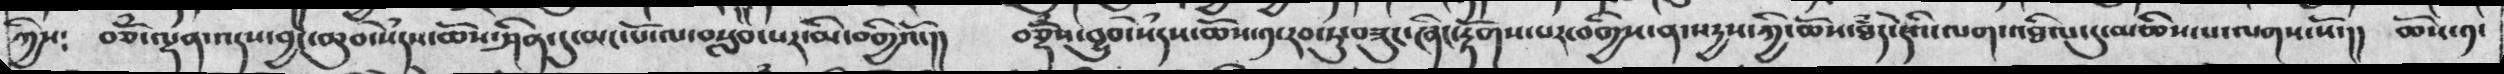ཀྱིས༴  བཅོཾ་ལྡན་འདས་བྱང་ཆུབ་སེཾདས་ཆོས་ཤིན་དུ་མང་པོ་བརླབ་པར་མི་བགྱིའོ་།།  བཅྡོཾས་བྱུབ་སེཾདས་ཆོས་༡་རབ་ཏུ་བཟུང་ཞིང་རྟོགས་པར་བགྱིས་ན་སདྱས་ཀྱི་ཆོས་ཐཾད་དེའི་ལག་འཐིལ་དུ་མཆིས་པ་ལགས་སོ་།།  ཆོས་༡་
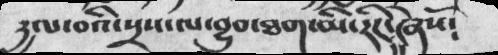དྱལ་བའི་སྲས་ལ་བྱུབ་ཐག་མི་རིང་ཞེསོ༴
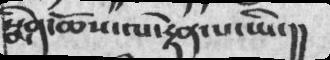སྨིན་ཆོས་ལ་རྟེན་པ་ཡི་།།
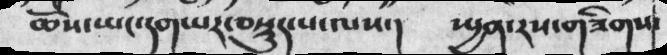ཆོས་ཡང་དག་བསྡུད་པ་ལས་།  སྤྱན་རས་གཟིགས་
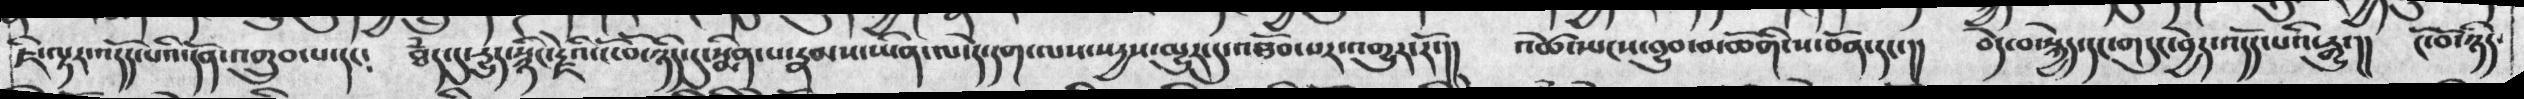ཇི་ལྟར་ལདོད་པའི་དོན་འགྲུབ་པ་དང༴  ཐཾད་དུ་རྱུད་སྙིང་རྗེའི་ངོ་བོ་ཉིད་དུ་སྨིན་པ་རྣམས་ཡིན་ལ་དེ་དག་ལས་སདྱས་མྱུར་དུ་འཐོབ་པར་འགྱུར་རོ་།།   འཚེ་སྤངས་བྱུབ་མཆོགོི་ས་བོན་དང་།།  བདེ་བ་སྐྱེད་དང་གདུང་བྱེད་འདོད་པའི་རྒྱུ་།།  ངོ་བོ་ཉིད་
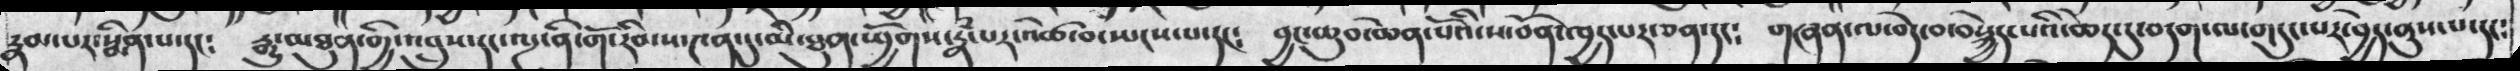རྣམ་པར་སྨིན་པ་དང༴       རྒྱུ་མཐུན་གྱི་འབྲུས་དང་ལྔ་ནི་གོ་རིམས་༤ན་དུ་མི་ཐུན་ཕྱོགས་རྣྃ་པར་འཚེ་བ་ཡངས་པ་དང༴   བྱང་ཆུབ་ཆེན་པོའི་ས་བོན་ཁྱད་པར་ཅན་དང༴   གཞན་ལ་བདེ་བ་བསྐྱེད་པའི་ཆེད་དུ་བདག་ལ་གདུང་པར་བྱེད་ནུས་པ་དང༴
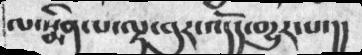ལ་སྨིན་པ་ལྟར་བུར་འདོད་གྱུར་པ་།།
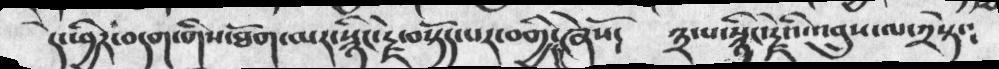དེ་ཕྱིར་བདག་གིས་ཐོག་མར་སྙིང་རྗེ་བསྟོད་པར་བགྱི་ཞེསོ༴  ༣་པ་སྙིང་རྗེའི་འབྲུས་ལ་༢སྟེ་༴
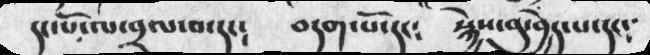དང་པོ་ལ་བྲལ་བ་དང༴      བདག་པོ་དང༴   སྐྱེས་བུ་བྱེད་པ་དང་།
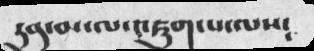དབུ་མ་ལ་འཇུག་པ་ལས༴
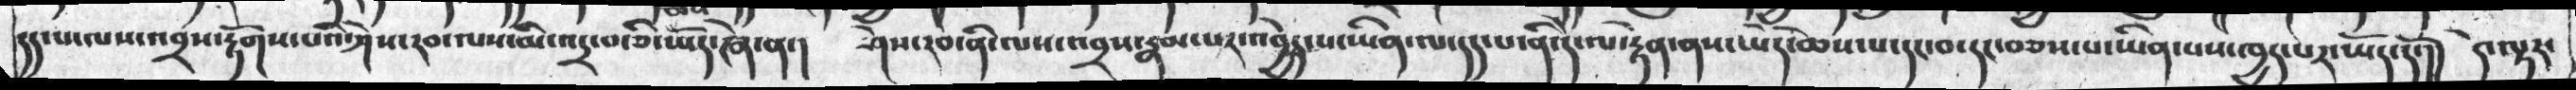དད་པ་ལས་འབྲས་རྟོགས་པའི་ཤེས་རབ་ལས་མི་འདྲ་པ་ཅི་ཡོད་ཞེ་ན་།    ཤེས་རབ་ནི་ལས་འབྲས་རྣམ་པར་འབྱེད་པ་ཡིན་ལ་དད་པ་ནི་དེ་ལ་རྟེན་ནས་ཡིད་ཆེས་པ་དང་བ་དང་བཅས་པ་ཡིན་པས་ཁྱད་པར་ཡོད་དོ་།།   དེ་ལྟར་
